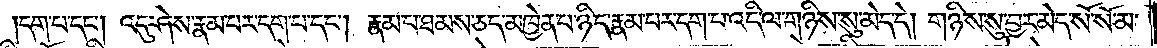དག་པ་དང༌། འདུ་ཤེས་རྣམ་པར་དག་པ་དང༌། རྣམ་པ་ཐམས་ཅད་མཁྱེན་པ་ཉིད་རྣམ་པར་དག་པ་འདི་ལ་གཉིས་སུ་མེད་དེ། གཉིས་སུ་བྱར་མེད་སོ་སོ་མ་
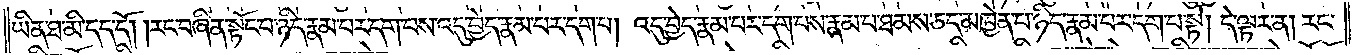ཡིན་ཐ་མི་དད་དོ། །རང་བཞིན་སྟོང་པ་ཉིད་རྣམ་པར་དག་པས་འདུ་བྱེད་རྣམ་པར་དག་པ། འདུ་བྱེད་རྣམ་པར་དག་པས་རྣམ་པ་ཐམས་ཅད་མཁྱེན་པ་ཉིད་རྣམ་པར་དག་པ་སྟེ། དེ་ལྟར་ན། རང་
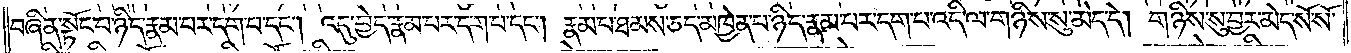བཞིན་སྟོང་པ་ཉིད་རྣམ་པར་དག་པ་དང༌། འདུ་བྱེད་རྣམ་པར་དག་པ་དང༌། རྣམ་པ་ཐམས་ཅད་མཁྱེན་པ་ཉིད་རྣམ་པར་དག་པ་འདི་ལ་གཉིས་སུ་མེད་དེ། གཉིས་སུ་བྱར་མེད་སོ་སོ་
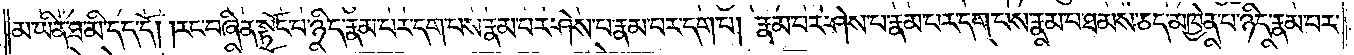མ་ཡིན་ཐ་མི་དད་དོ། །རང་བཞིན་སྟོང་པ་ཉིད་རྣམ་པར་དག་པས་རྣམ་པར་ཤེས་པ་རྣམ་པར་དག་པ། རྣམ་པར་ཤེས་པ་རྣམ་པར་དག་པས་རྣམ་པ་ཐམས་ཅད་མཁྱེན་པ་ཉིད་རྣམ་པར་
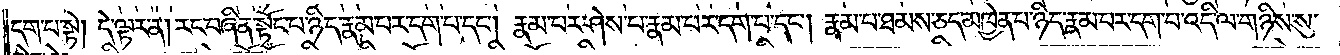དག་པ་སྟེ། དེ་ལྟར་ན། རང་བཞིན་སྟོང་པ་ཉིད་རྣམ་པར་དག་པ་དང༌། རྣམ་པར་ཤེས་པ་རྣམ་པར་དག་པ་དང༌། རྣམ་པ་ཐམས་ཅད་མཁྱེན་པ་ཉིད་རྣམ་པར་དག་པ་འདི་ལ་གཉིས་སུ་
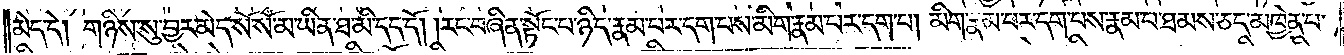མེད་དེ། གཉིས་སུ་བྱར་མེད་སོ་སོ་མ་ཡིན་ཐ་མི་དད་དོ། །རང་བཞིན་སྟོང་པ་ཉིད་རྣམ་པར་དག་པས་མིག་རྣམ་པར་དག་པ། མིག་རྣམ་པར་དག་པས་རྣམ་པ་ཐམས་ཅད་མཁྱེན་པ་
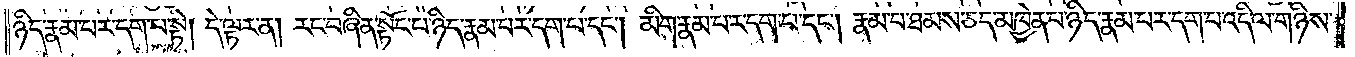ཉིད་རྣམ་པར་དག་པ་སྟེ། དེ་ལྟར་ན། རང་བཞིན་སྟོང་པ་ཉིད་རྣམ་པར་དག་པ་དང༌། མིག་རྣམ་པར་དག་པ་དང༌། རྣམ་པ་ཐམས་ཅད་མཁྱེན་པ་ཉིད་རྣམ་པར་དག་པ་འདི་ལ་གཉིས་
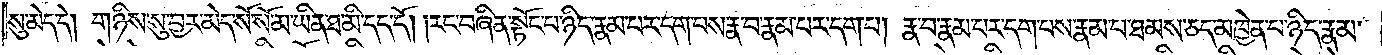སུ་མེད་དེ། གཉིས་སུ་བྱར་མེད་སོ་སོ་མ་ཡིན་ཐ་མི་དད་དོ། །རང་བཞིན་སྟོང་པ་ཉིད་རྣམ་པར་དག་པས་རྣ་བ་རྣམ་པར་དག་པ། རྣ་བ་རྣམ་པར་དག་པས་རྣམ་པ་ཐམས་ཅད་མཁྱེན་པ་ཉིད་རྣམ་
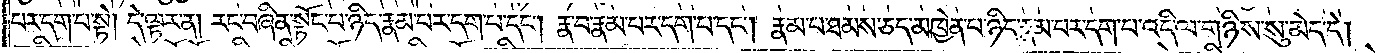པར་དག་པ་སྟེ། དེ་ལྟར་ན། རང་བཞིན་སྟོང་པ་ཉིད་རྣམ་པར་དག་པ་དང༌། རྣ་བ་རྣམ་པར་དག་པ་དང༌། རྣམ་པ་ཐམས་ཅད་མཁྱེན་པ་ཉིད་རྣམ་པར་དག་པ་འདི་ལ་གཉིས་སུ་མེད་དེ།
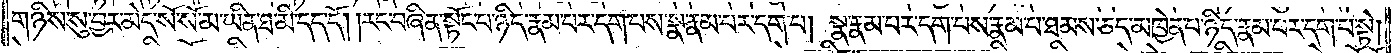གཉིས་སུ་བྱར་མེད་སོ་སོ་མ་ཡིན་ཐ་མི་དད་དོ། །རང་བཞིན་སྟོང་པ་ཉིད་རྣམ་པར་དག་པས་སྣ་རྣམ་པར་དག་པ། སྣ་རྣམ་པར་དག་པས་རྣམ་པ་ཐམས་ཅད་མཁྱེན་པ་ཉིད་རྣམ་པར་དག་པ་སྟེ།
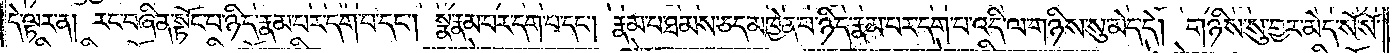དེ་ལྟར་ན། རང་བཞིན་སྟོང་པ་ཉིད་རྣམ་པར་དག་པ་དང༌། སྣ་རྣམ་པར་དག་པ་དང༌། རྣམ་པ་ཐམས་ཅད་མཁྱེན་པ་ཉིད་རྣམ་པར་དག་པ་འདི་ལ་གཉིས་སུ་མེད་དེ། གཉིས་སུ་བྱར་མེད་སོ་སོ་
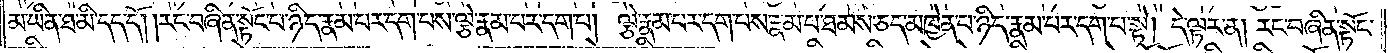མ་ཡིན་ཐ་མི་དད་དོ། །རང་བཞིན་སྟོང་པ་ཉིད་རྣམ་པར་དག་པས་ལྕེ་རྣམ་པར་དག་པ། ལྕེ་རྣམ་པར་དག་པས་རྣམ་པ་ཐམས་ཅད་མཁྱེན་པ་ཉིད་རྣམ་པར་དག་པ་སྟེ། དེ་ལྟར་ན། རང་བཞིན་སྟོང་
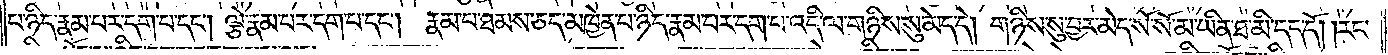པ་ཉིད་རྣམ་པར་དག་པ་དང༌། ལྕེ་རྣམ་པར་དག་པ་དང༌། རྣམ་པ་ཐམས་ཅད་མཁྱེན་པ་ཉིད་རྣམ་པར་དག་པ་འདི་ལ་གཉིས་སུ་མེད་དེ། གཉིས་སུ་བྱར་མེད་སོ་སོ་མ་ཡིན་ཐ་མི་དད་དོ། །རང་
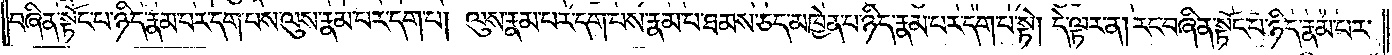བཞིན་སྟོང་པ་ཉིད་རྣམ་པར་དག་པས་ལུས་རྣམ་པར་དག་པ། ལུས་རྣམ་པར་དག་པས་རྣམ་པ་ཐམས་ཅད་མཁྱེན་པ་ཉིད་རྣམ་པར་དག་པ་སྟེ། དེ་ལྟར་ན། རང་བཞིན་སྟོང་པ་ཉིད་རྣམ་པར་
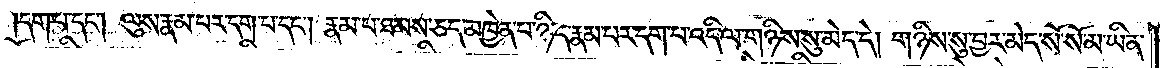དག་པ་དང༌། ལུས་རྣམ་པར་དག་པ་དང༌། རྣམ་པ་ཐམས་ཅད་མཁྱེན་པ་ཉིད་རྣམ་པར་དག་པ་འདི་ལ་གཉིས་སུ་མེད་དེ། གཉིས་སུ་བྱར་མེད་སོ་སོ་མ་ཡིན་
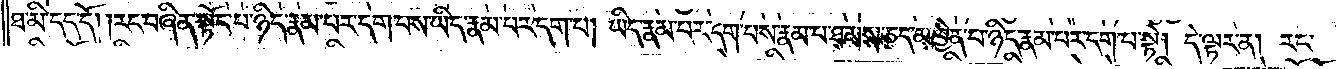ཐ་མི་དད་དོ། །རང་བཞིན་སྟོང་པ་ཉིད་རྣམ་པར་དག་པས་ཡིད་རྣམ་པར་དག་པ། ཡིད་རྣམ་པར་དག་པས་རྣམ་པ་ཐམས་ཅད་མཁྱེན་པ་ཉིད་རྣམ་པར་དག་པ་སྟེ། དེ་ལྟར་ན། རང་
